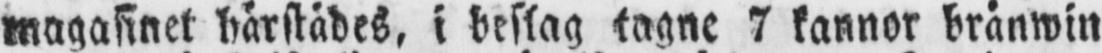magasinet härstädes, i beslag tagne 7 kannor bränwin
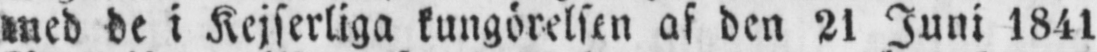med de i Kejserliga kungörelsen af den 2l Juni 1841
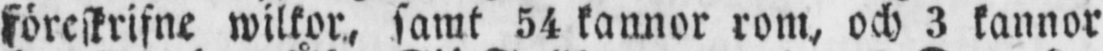föreskrifne wilkor, samt 54 kannor rom, och 3 kannor
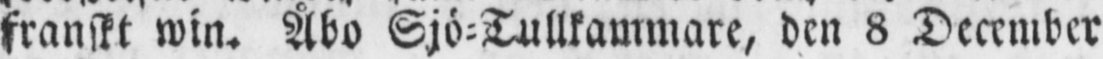franskt win. Åbo Sjö-Tullkammare, den 8 December
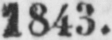1843.
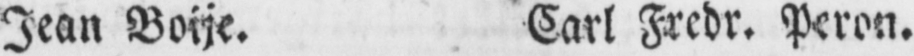Jean Boije. Carl Fredr. Peron.
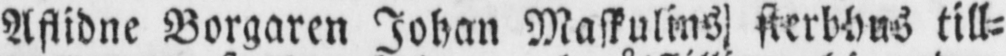Aflidne Borgaren Johan Maskulins sterbhus till-
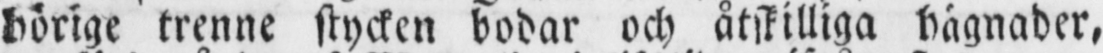hörige trenne stycken bodar och åtskilliga hägnader,
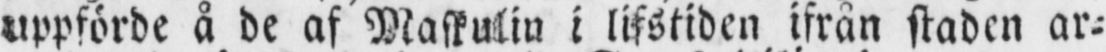uppförde å de af Maskulin i lifstiden ifrån staden ar-
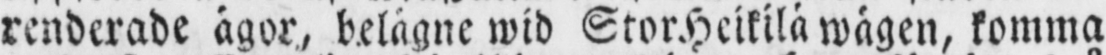renderade ägor, belägne wid StorHeitiläwägen, komma
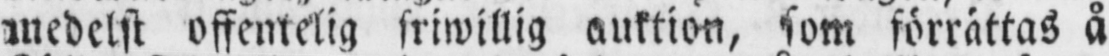medelst offentelig friwillig auktion, som förrättas å
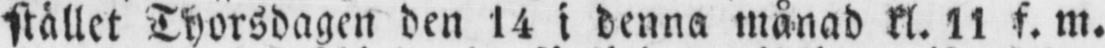stället Thorsdagen den 14 i denna månad kl. 11 f. m.
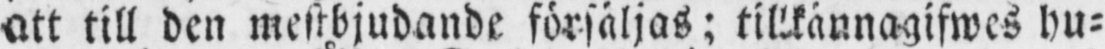att till den mestbjudande försäljas; tillkännagifwes hu-
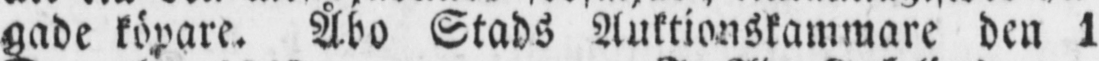gade köpare. Åbo Stads Auktionskammare den 1
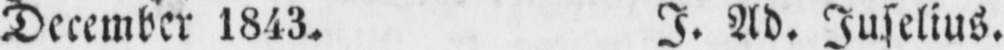December 1843. I. Ad. Juselius.
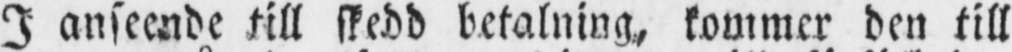I anseende till skedd betalning, kommer den till
